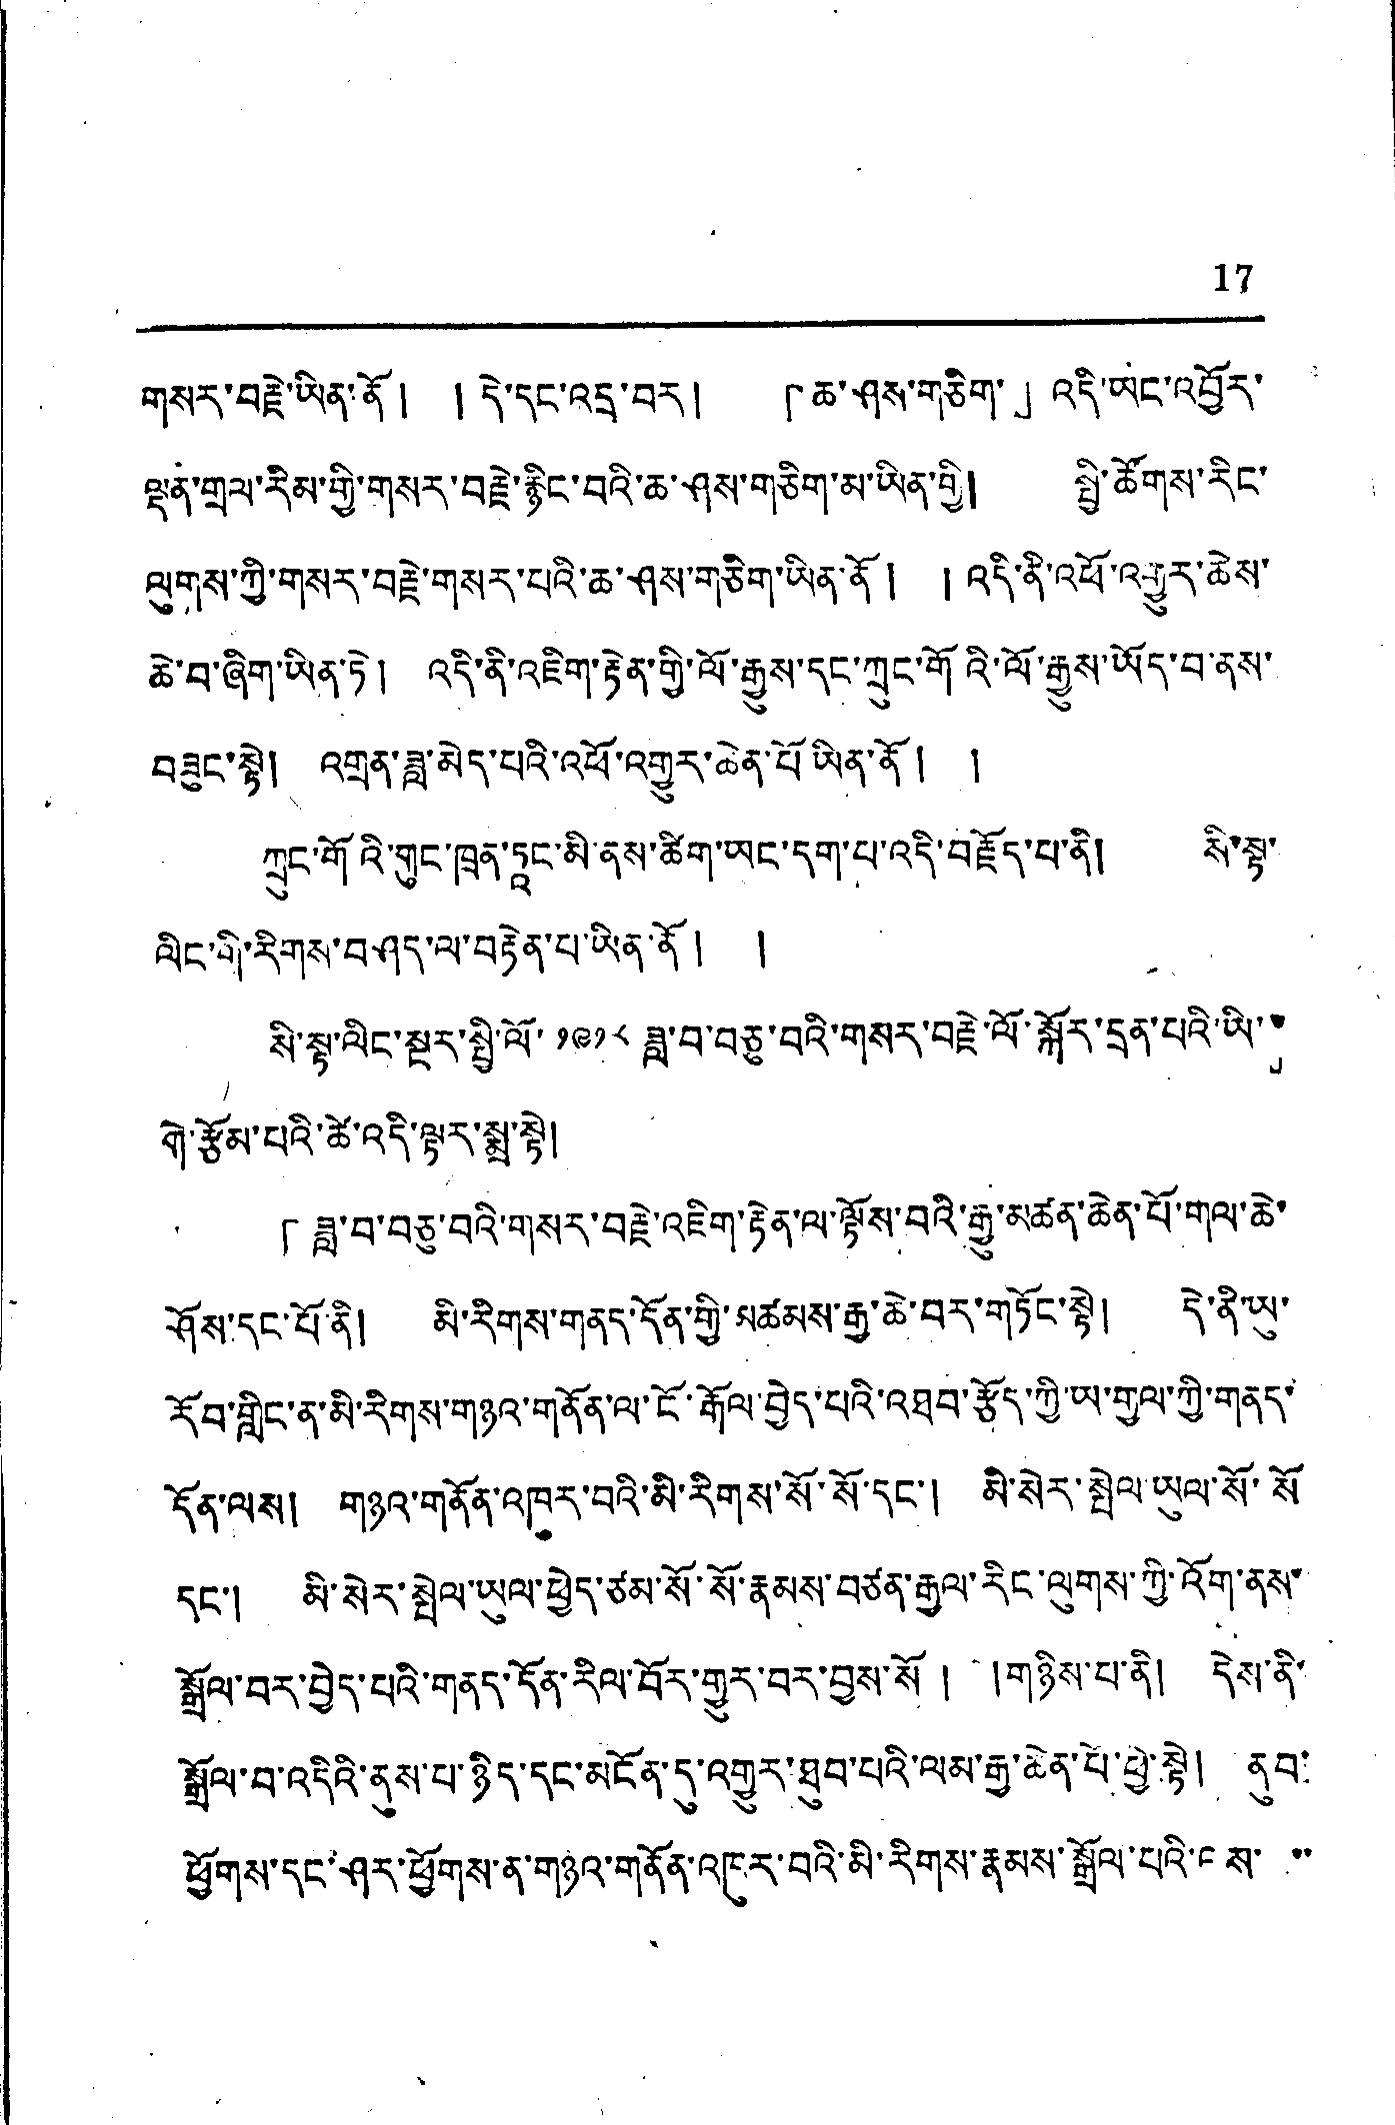17
གསར་བརྗེ་ཡིན་ནོ ། ། དེ་དང་འདྲ་བར། 「ཆ་ཤས་གཅིག་」འདི་ཡང་འབྱོར་
ལྡན་གྲལ་རིམ་གྱི་གསར་བརྗེ་རྙིང་བའི་ཆ་ཤས་གཅིག་མ་ཡིན་གྱི། སྤྱི་ཚོགས་རིང་
ལུགས་ཀྱི་གསར་བརྗེ་གསར་པའི་ཆ་ཤས་གཅིག་ཡིན་ནོ ། ། འདི་ནི་འཕོ་འགྱུར་ཆེས་
ཆེ་བ་ཞིག་ཡིན་ཏེ། འདི་ནི་འཇིག་རྟེན་གྱི་ལོ་རྒྱུས་དང་ཀྲུང་གོའི་ལོ་རྒྱུས་ཡོད་པ་ནས་
བཟུང་སྟེ། འགྲན་ཟླ་མེད་པའི་འཕོ་འགྱུར་ཆེན་པོ་ཡིན་ནོ ། །
ཀྲུང་གོའི་གུང་ཁྲན་ཏཱང་མི་ནས་ཚིག་ཡང་དག་པ་འདི་བརྗོད་པ་ནི། སི་སྟ་
ལིང་གི་རིགས་བཤད་ལ་བརྟེན་པ་ཡིན་ནོ། །
སི་སྟ་ལིང་སྔར་སྤྱི་ལོ་ ༡༩༡༨ ཟླ་བ་བཅུ་བའི་གསར་བརྗེ་ལོ་སྐོར་དྲན་པའི་ཡི་་
གེ་རྩོམ་པའི་ཚེ་འདི་ལྟར་སྨྲ་སྟེ།
「ཟླ་བ་བཅུ་བའི་གསར་བརྗེ་འཇིག་རྟེན་ལ་ལྟོས་བའི་རྒྱུ་མཚན་ཆེན་པོ་གལ་ཆེ་
ཤོས་དང་པོ་ནི། མི་རིགས་གནད་དོན་གྱི་མཚམས་རྒྱ་ཆེ་བར་གཏོང་སྟེ། དེ་ནི་ཡུ་
རོབ་གླིང་ན་མི་རིགས་གཉའ་གནོན་ལ་ངོ་རྒོལ་བྱེད་པའི་འཐབ་རྩོད་ཀྱི་ཡ་གྱལ་ཀྱི་གནད་
དོན་ལས། གཉའ་གནོན་འཁུར་བའི་མི་རིགས་སོ་སོ་དང་། མི་སེར་སྤེལ་ཡུལ་སོ་སོ
དང་། མི་སེར་སྤེལ་ཡུལ་ཕྱེད་ཙམ་སོ་སོ་རྣམས་བཙན་རྒྱལ་རིང་ལུགས་ཀྱི་འོག་ནས་
སྒྲོལ་བར་བྱེད་པའི་གནད་དོན་རིལ་བོར་གྱུར་བར་བྱས་སོ ། །གཉིས་པ་ནི། དེས་ནི་
སྒྲོལ་བ་འདིའི་ནུས་པ་ཉིད་དང་མངོན་དུ་འགྱུར་ཐུབ་པའི་ལམ་རྒྱ་ཆེན་པོ་ཕྱེ་སྟེ། ནུབ་
ཕྱོགས་དང་ཤར་ཕྱོས་ན་གཉའ་གནོན་འཁུར་བའི་མི་རིགས་རྣམས་སྒྲོལ་པའི་ལས་་་་
